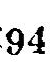94
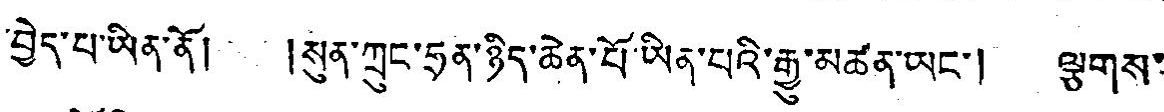བྱེད་པ་ཡིན་ནོ། །སུན་ཀྲུང་ཧྲན་ཉིད་ཆེན་པོ་ཡིན་པའི་རྒྱུ་མཚན་ཡང་། ལྕགས་
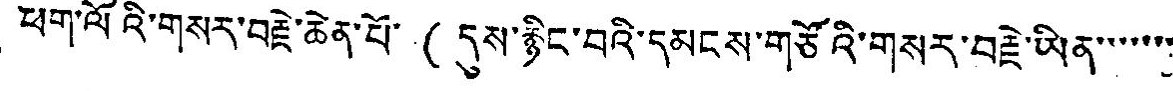ཕག་ལོའི་གསར་བརྗེ་ཆེན་པོ་ ( དུས་རྙིང་བའི་དམངས་གཙོའི་གསར་བརྗེ་ཡིན་་་་་་་་
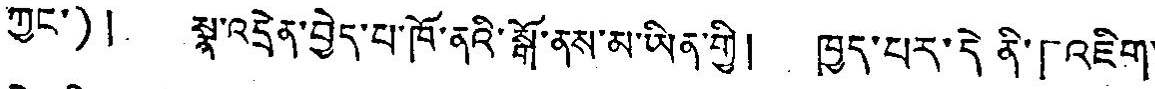ཀྱང་) ། སྣ་འདྲེན་བྱེད་པ་ཁོ་ནའི་སྒོ་ནས་མ་ཡིན་གྱི། ཁྱད་པར་དེ་ནི་「འཇིག་
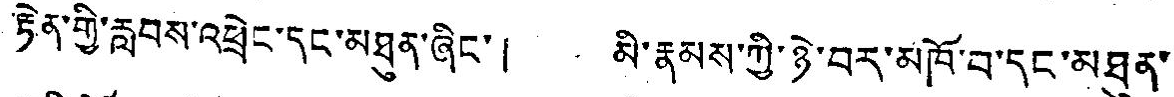རྟེན་གྱི་རླབས་འཕྲེང་དང་མཐུན་ཞིང་། མི་རྣམས་ཀྱི་ཉེ་བར་མཁོ་བ་དང་མཐུན་
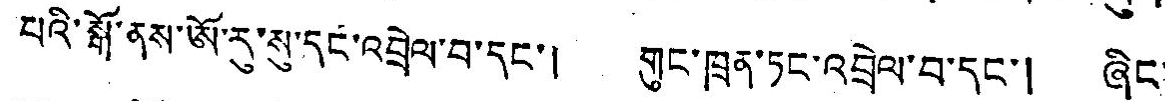པའི་སྒོ་ནས་ཨོ་རུ་སུ་དང་འབྲེལ་བ་དང་། གུང་ཁྲན་ཏང་འབྲེལ་བ་དང་། ཞིང་
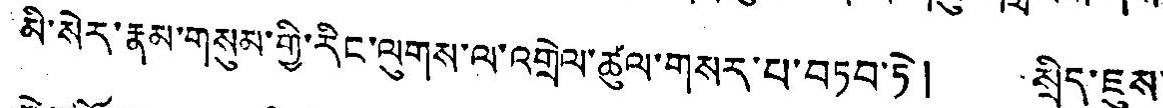མི་སེར་རྣམ་གསུམ་གྱི་རིང་ལུགས་ལ་འགྲེལ་ཚུལ་གསར་པ་བཏབ་ཏེ། སྲིད་ཇུས་
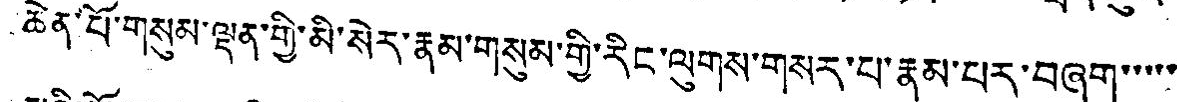ཆེན་པོ་གསུམ་ལྡན་གྱི་མི་སེར་རྣམ་གསུམ་གྱི་རིང་ལུགས་གསར་པ་རྣམ་པར་བཞག་་་་་་
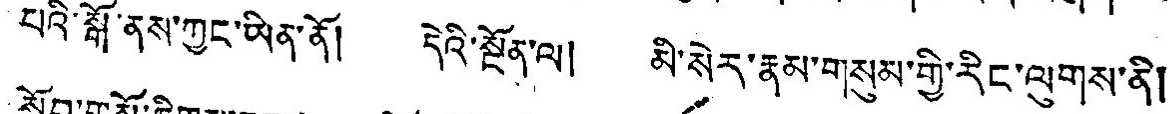པའི་སྒོ་ནས་ཀྱང་ཡིན་ནོ། དེའི་སྔོན་ལ། མི་སེར་རྣམ་གསུམ་གྱི་རིང་ལུགས་ནི།
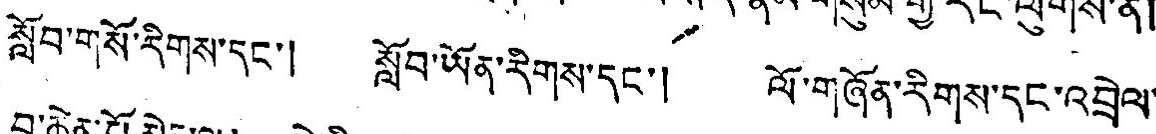སློབ་གསོ་རིགས་དང་། སློབ་ཡོན་རིགས་དང་། ལོ་གཞོན་རིགས་དང་འབྲེལ་
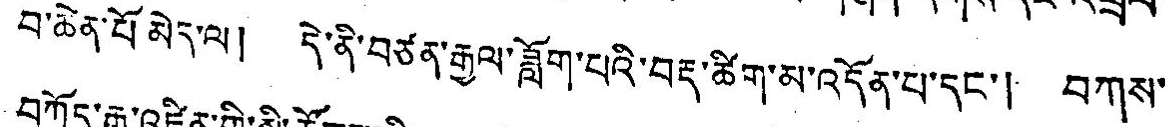བ་ཆེན་པོ་མེད་ལ། དེ་ནི་བཙན་རྒྱལ་ཟློག་པའི་བརྡ་ཚིག་མ་འདོན་པ་དང་། བཀས་
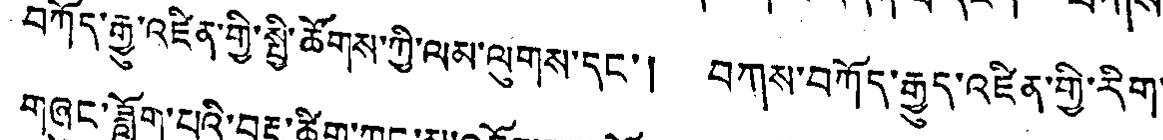བཀོད་རྒྱུ་འཛིན་གྱི་སྤྱི་ཚོགས་ཀྱི་ལམ་ལུགས་དང་། བཀས་བཀོད་རྒྱུད་འཛིན་གྱི་རིག་
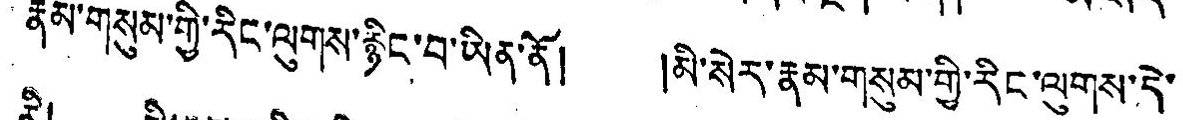ནིམ་གསུམ་ཀྱི་རིང་ལུགས་རྙིང་བ་ཡིན་ནོ། །ཡི་སེར་རྣམ་གསུམ་གྱི་རིང་ལུགས་དེ་
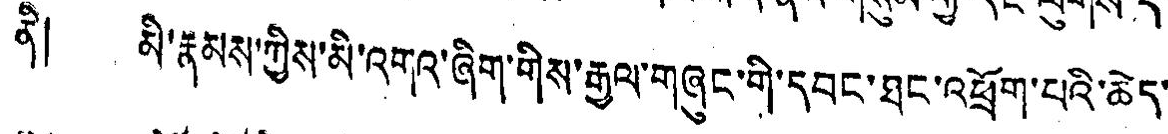ནི། མི་རྣམས་ཀྱིས་མི་འགའ་ཞིག་གིས་རྒྱལ་གཞུང་གི་དབང་ཐང་འཕྲོག་པའི་ཆེད་
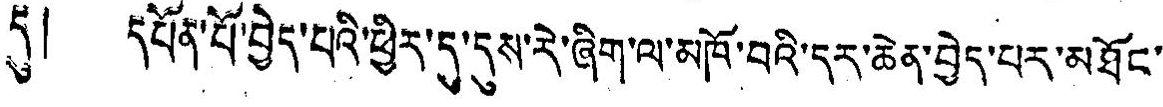དུ། དཔོན་པོ་བྱེད་པའི་ཕྱིར་དུ་དུས་རེ་ཞིག་ལ་མཁོ་བའི་དར་ཆེན་བྱེད་པར་མཐོང་
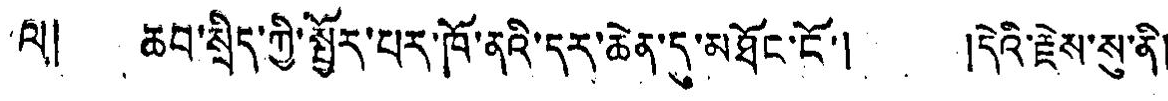ལ། ཆབ་སྲིད་ཀྱི་སྤྱོར་པར་ཁོ་ནའི་དར་ཆེན་དུ་མཐོང་ངོ་། དེའི་རྗེས་སུ་ནི།
